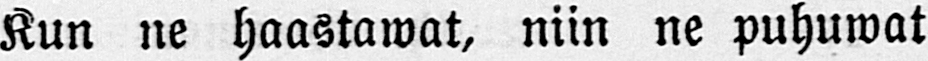Kun ne haastawat, niin ne puhuwat
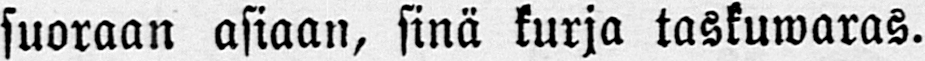suoraan asiaan, sinä kurja taskuwaras.
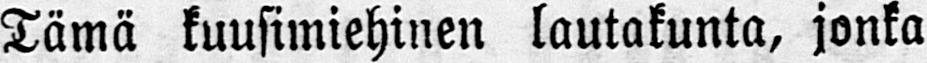Tämä kuusimiehinen lautakunta, jonka
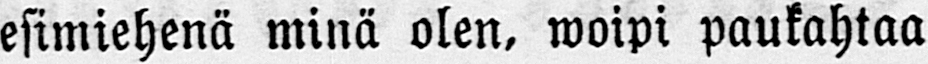esimiehenä minä olen, woipi paukahtaa
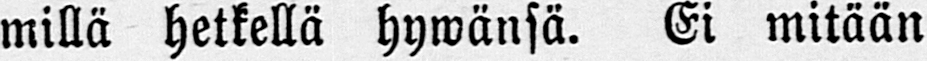millä hetkellä hywänsä. Ei mitään
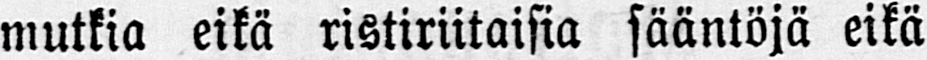mutkia eikä ristiriitaisia sääntöjä eikä
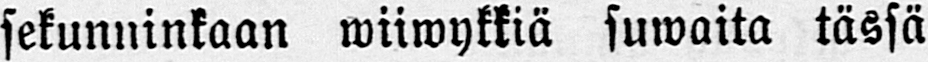sekunninkaan wiiwykkiä suwaita tässä
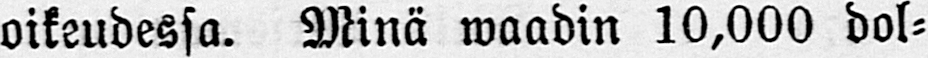oikeudessa. Minä waadin 10,000 dol-
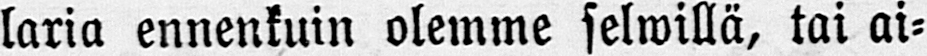laria ennenkuin olemme selwillä, tai ai-
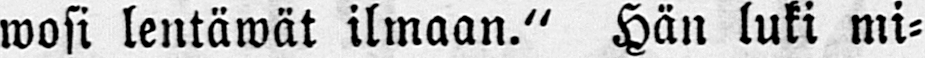wosi lentäwät ilmaan." Hän luki mi-
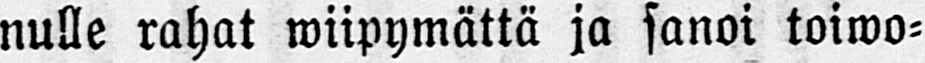nulle rahat wiipymättä ja sanoi toiwo-
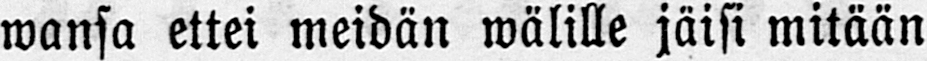wansa ettei meidän wälille jäisi mitään
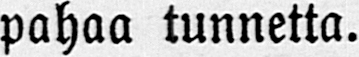pahaa tunnetta.
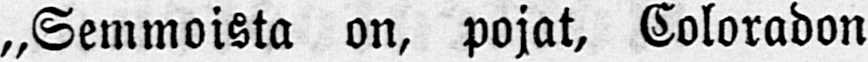„Semmoista on, pojat, Coloradon
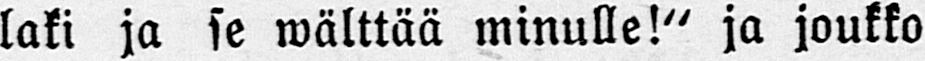laki ja se wälttää minulle!" ja joukko
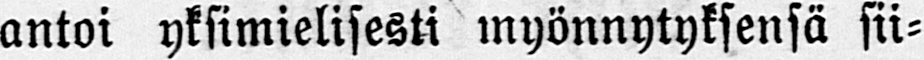antoi yksimielisesti myönnytyksensä sii-
